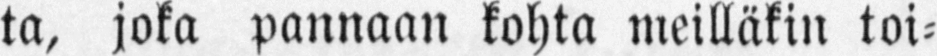ta, joka pannaan kohta meilläkin toi-
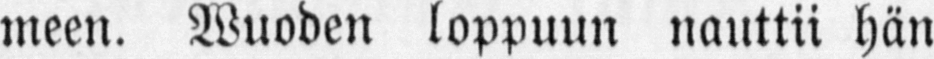meen. Wuoden loppuun nauttii hän
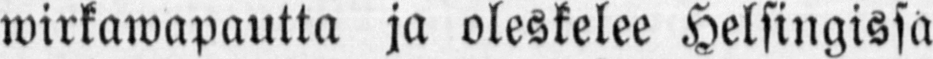wirkawapautta ja oleskelee Helsingissä
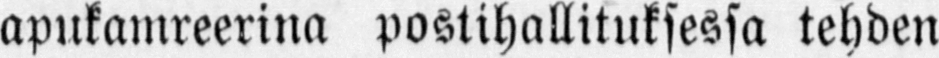apukamreerina postihallituksessa tehden
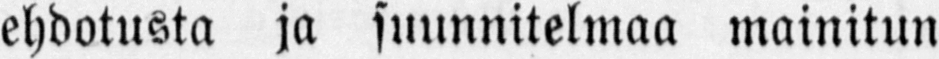ehdotusta ja suunnitelmaa mainitun
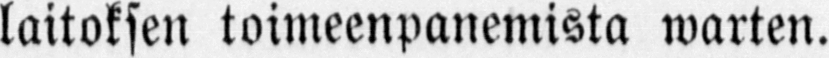laitoksen toimeenpanemista warten.
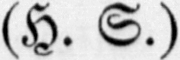(H. S.)
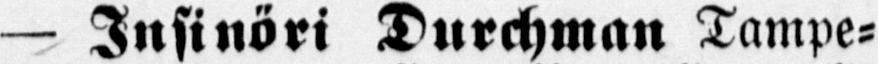— Insinöri Durchman Tampe-
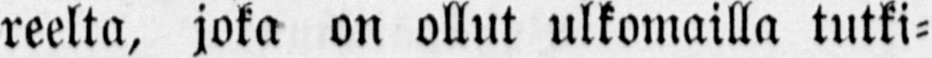reelta, joka on ollut ulkomailla tutki-
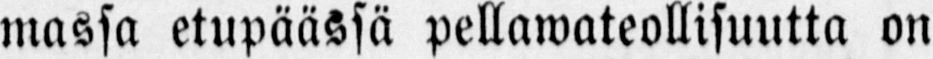massa etupäässä pellawateollisuutta on
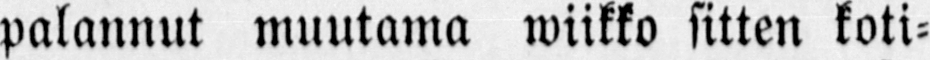palannut muutama wiikko sitten koti-
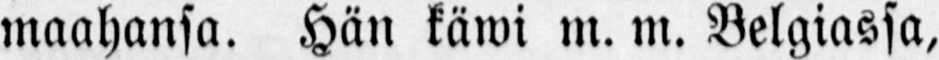maahansa. Hän käwi m. m. Belgiassa,
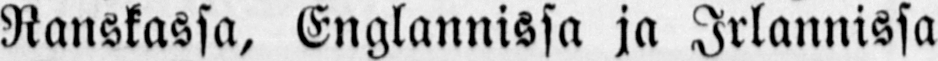Ranskassa, Englannissa ja Irlannissa
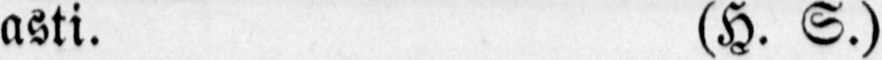asti. (H. S.)
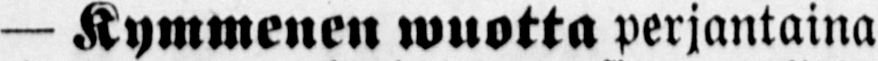— Kymmenen wuotta perjantaina
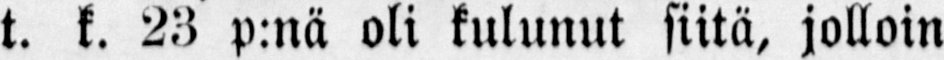t. k. 23 p:nä oli kulunut siitä, jolloin
